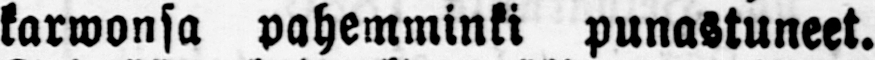karwonsa pahemminki punastuneet.
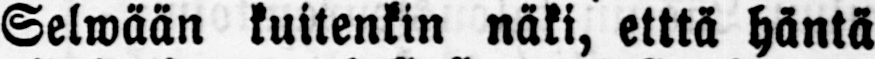Selwään kuitenkin näki, etttä häntä
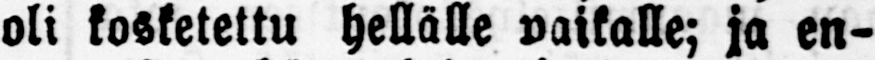oli kosketettu hellälle paikalle; ja en-
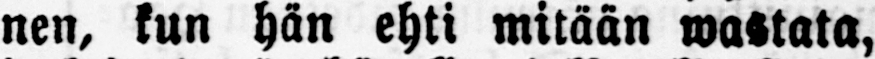nen, kun hän ehti mitään wastata,
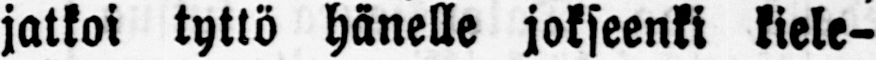jatkoi tyttö hänelle jokseenki kiele-
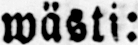wästi:
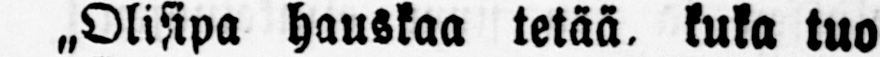„Olisipa hauskaa tetää, kuka tuo
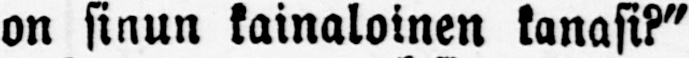on sinun kainaloinen kanasi?"
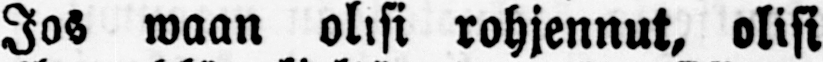Jos waan olisi rohjennut, olisi
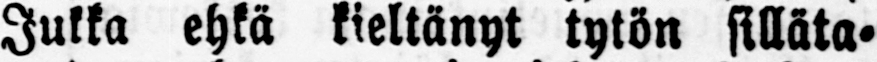Jukka ehkä kieltänyt tytön silläta-
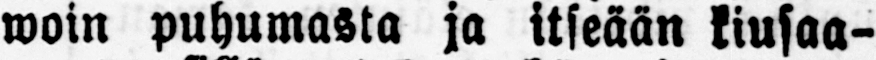woin puhumasta ja itseään kiusaa-
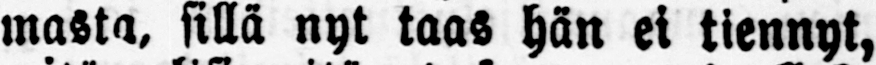masta, sillä nyt taas hän ei tiennyt,
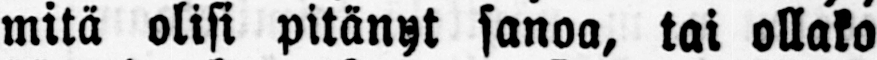mitä olisi pitänyt sanoa, tai ollako
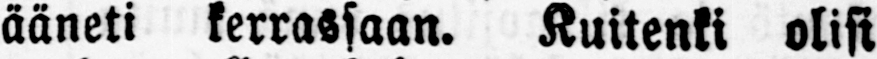ääneti kerrassaan. Kuitenki olisi
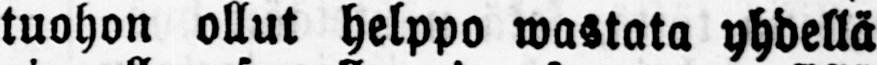tuohon ollut helppo wastata yhdellä
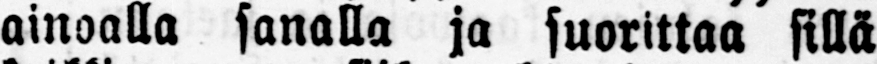ainoalla sanalla ja suorittaa sillä
